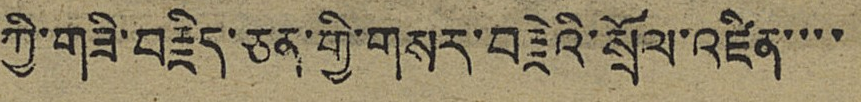ཀྱི་གཟི་བརྗིད་ཅན་གྱི་གསར་བརྗེའི་སྲོལ་འཛིན་་་་
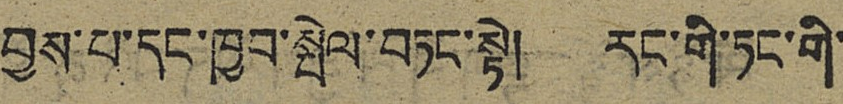བྱས་པ་དང་ཁྱབ་སྤེལ་བཏང་སྟེ། རང་གི་ཏང་གི་
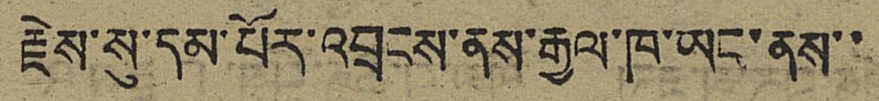རྗེས་སུ་དམ་པོར་འབྲངས་ནས་རྒྱལ་ཁ་ཡང་ནས་་
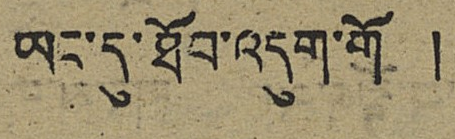ཡང་དུ་ཐོབ་འདུག་གོ །
